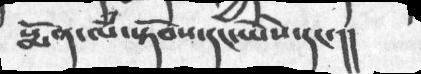སྨོན་ལཾ་སྟོབས་དང་ཡཻས་དང་།།
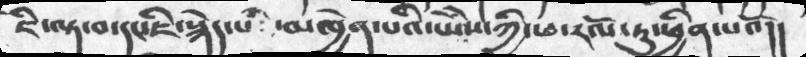ཇི་ལྟ་བ་དང་ཇི་སྙེད་པ་མཁྱེན་པའི་ཡེེས་ཀྱི་ཕ་རོལ་ཏུ་ཕྱིན་པའོ།།
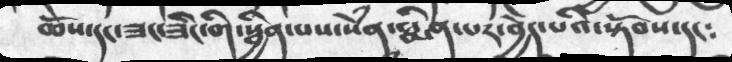ཆོས་དང་ཟང་ཟིང་གི་སྦྱིན་པས་སེཾན་སྨིན་པར་བྱེད་པའི་སྟོབས་དང༴
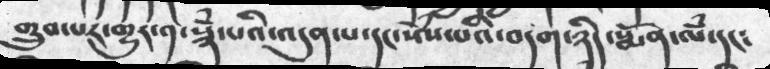གྲུབ་པར་གྱུར་༡་སྙཾ་པའི་འདུན་པ་དང་སེཾས་པའི་བདག་ཉིད་སྨོན་ལཾ་དང༴
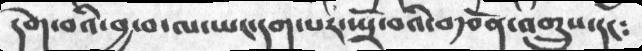དགེ་བའི་བྱ་བ་ལ་ཡང་དག་པར་སྤྲོ་བའི་བརྩོན་འགྲུས་དང༴
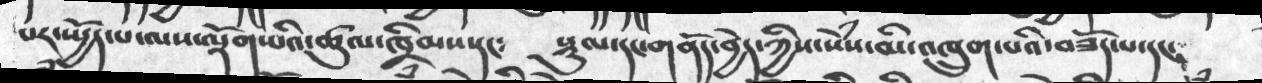པར་སྤྱོད་པ་ལས་ལྡོག་པའི་ཚུལ་ཁྲིམས་དང༴  སྡུལ་དང་གནོད་བྱེད་ཀྱིས་སེཾས་མི་འཁྲུག་པའི་བཟོད་པ་དང༴
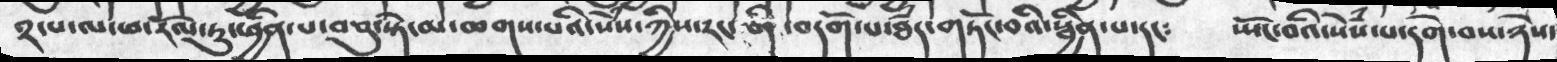༢་པ་ཕ་རོལ་ཏུ་ཕྱིན་པ་བཅུ་སྟེ་མ་ཆགས་པའི་སེཾས་ཀྱིས་རང་གི་བདོག་པ་ཐཾད་གཏོང་བའི་སྦྱིན་པ་དང༴   སྤོང་བའི་སེཾས་པ་དགེ་བས་ཉེས་
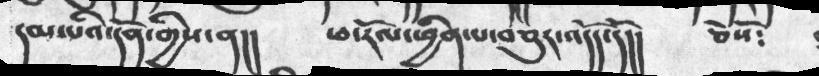དམ་པའི་དོན་གྱིས་ན།།   ཕ་རོལ་ཕྱིན་པ་བཅུར་འདོད་དོ།།  ཅེསོ༴
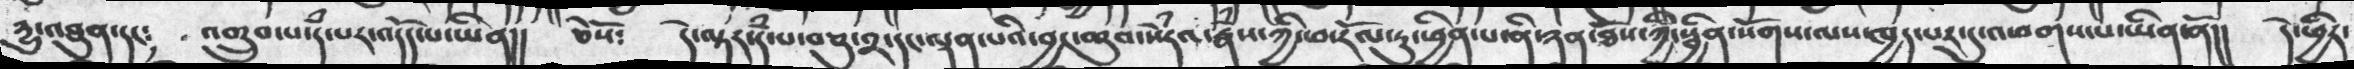དྱུ་མཐུན་དང༴  འགྲུབ་པ་དཾ་པར་འདོད་པ་ཡིན།། ཅེསོ༴  དེ་ལྟར་དཾ་པ་བཅུ་༢་དང་ལྡན་པའི་བྱང་ཆུབ་སེཾདའ་རྣཾས་ཀྱི་ཕ་རོལ་ཏུ་ཕྱིན་པ་ནི་ཉན་ཐོས་ཀྱི་སྦྱིན་སོགས་ལས་ཁྱད་པར་དུ་འཕགས་པ་ཡིན་ནོ།།  དེ་ཕྱིར་
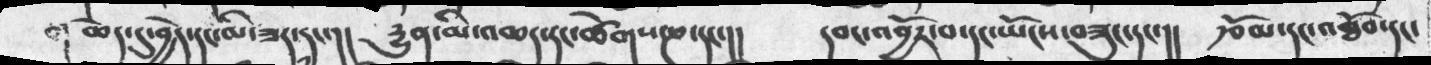ག ཆེད་དུ་བྱེད་དང་མི་ཟད་དང་།།    རྱུན་མི་འཆད་དང་ཚེགས་ཎ་དང་།།    དབང་འབྱོར་བ་དང་ཡོངས་བཟུང་དང་།།    རྩོམ་དང་འཐོབ་དང་
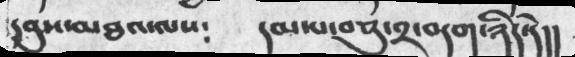དབུས་མཐའ་ལས༴   དམ་པ་བཅུ་༢་བདག་ཉིད་དེ།།
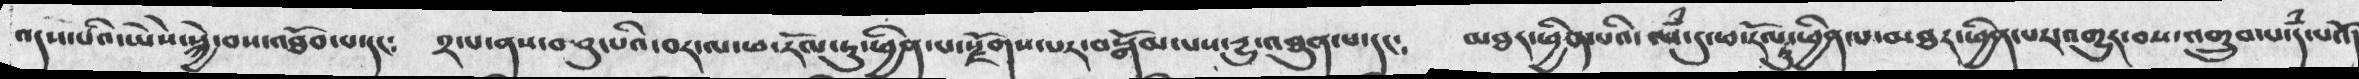འདས་པའི་ཡེེས་སྐྱེ་བས་འཐོབ་པ་དང༴   ༢་པ་ནས་བཅུ་པའི་བར་ལ་ཕ་རོལ་ཏུ་ཕྱིན་པ་སྫོགས་པར་བསྒོམ་པས་རྱུ་འཐུན་པ་དང༴ མཐར་ཕྱིན་པའི་ལཾ་དུ་ཕ་རོལ་ཏུ་ཕྱིན་པ་མཐར་ཕྱིན་པར་འགྱུར་བས་འགྲུབ་པ་དཾ་པའོ་
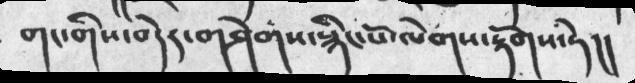གང་གིས་བདེར་གཤེགས་སྙིང་པོ་ལེགས་རྟོགས་ཏེ།།
